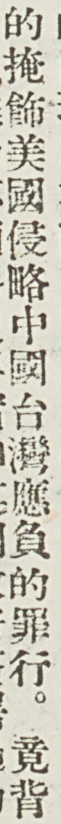的掩飾美國侵略中國台灣應負的罪行。竟背
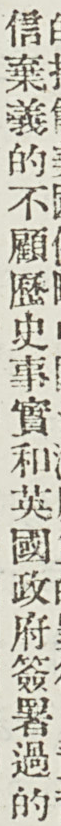信棄義的不顧歷史事實和英國政府簽署過的
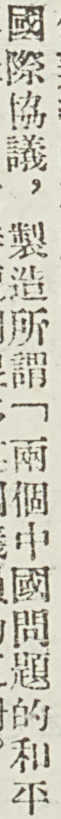國際協議，製造所謂「兩個中國問題的和平
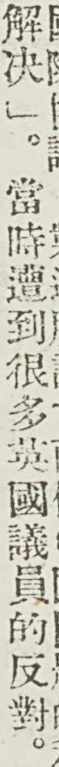解決」。當時遭到很多英國議員的反對。
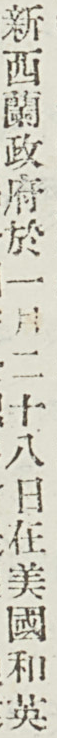新西蘭政府於一月二十八日在美國和英
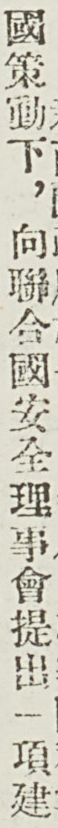國策動下，向聯合國安全理事會提出一項建
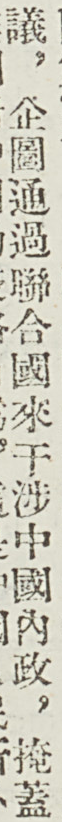議，企圖通過聯合國來干涉中國內政，掩蓋
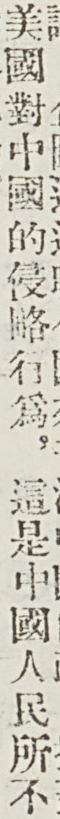美國對中國的侵略行爲，這是中國人民所不
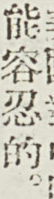能容忍的。
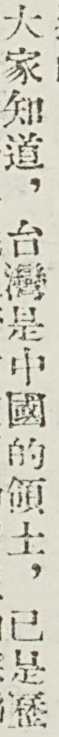大家知道，台灣是中國的領土，已是歷
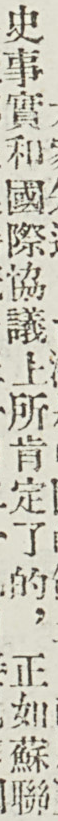史事實和國際協議上所肯定了的，正如蘇聯
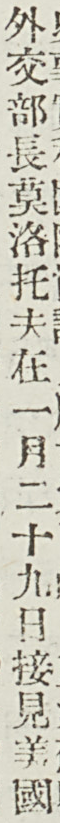外交部長莫洛托夫在一月二十九日接見美國
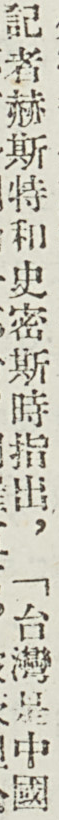記者赫斯特和史密斯時指出，「台灣是中國
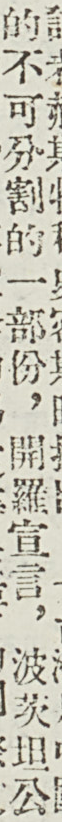的不可分割的一部份，開羅宣言，波茨坦公
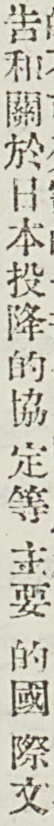告和關於日本投降的協 定等 主要 的國 際文
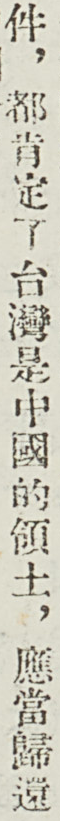件，都肯定了台灣是中國的領土，應當歸還
